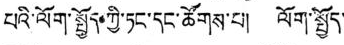པའི་ལོག་སྤྱོད་ཀྱི་ཏང་དང་ཚོགས་པ། ལོག་སྤྱོད་
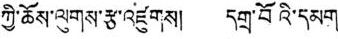ཀྱི་ཆོས་ལུགས་རྩ་འཛུགས། དགྲ་བོའི་དམག་
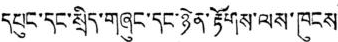དཔུང་དང་སྲིད་གཞུང་དང་ཉེན་རྟོགས་ལས་ཁུངས་
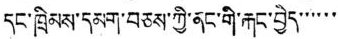དང་ཁྲིམས་དམག་བཅས་ཀྱི་ནང་གི་རྐང་བྱེད་་་་་་་
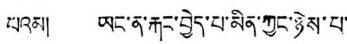པའམ། ཡང་ན་རྐང་བྱེད་པ་མིན་ཀྱང་ཉེས་པ་
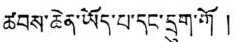ཚབས་ཆེན་ཡོད་པ་དང་དྲུག་གོ །
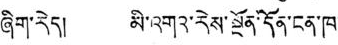ཞིག་རེད། མི་འགའ་རེས་སྔོན་དོན་ངན་ཁ་
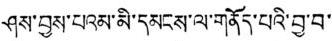ཤས་བྱས་པའམ་མི་དམངས་ལ་གནོད་པའི་བྱ་བ་་
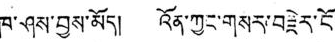ཁ་ཤས་བྱས་མོད། འོན་ཀྱང་གསར་བརྗེར་ངོ་
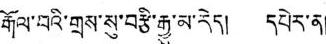རྒོལ་བའི་གྲས་སུ་བརྩི་རྒྱུ་མ་རེད། དཔེར་ན།
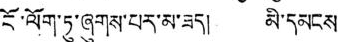ངོ་ལོག་ཏུ་ཞུགས་པར་མ་ཟད། མི་དམངས་
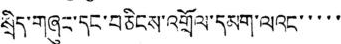སྲིད་གཞུང་དང་བཅིངས་འགྲོལ་དམག་ལའང་་་་་
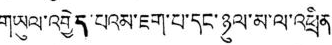གཡུལ་འགྱེད་པའམ་ཇག་པ་དང་ཉུལ་མ་ལ་འཕྲིན་
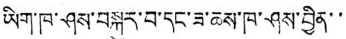ཡིག་ཁ་ཤས་བསྐུར་བ་དང་ཟ་ཆས་ཁ་ཤས་བྱིན་་
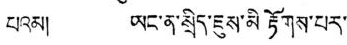པའམ། ཡང་ན་སྲིད་ཇུས་མི རྟོགས་པར་
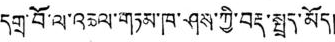དགྲ་བོ་ལ་འཆལ་གཏམ་ཁ་ཤས་ཀྱི་བརྡ་སྤྲད་མོད།
